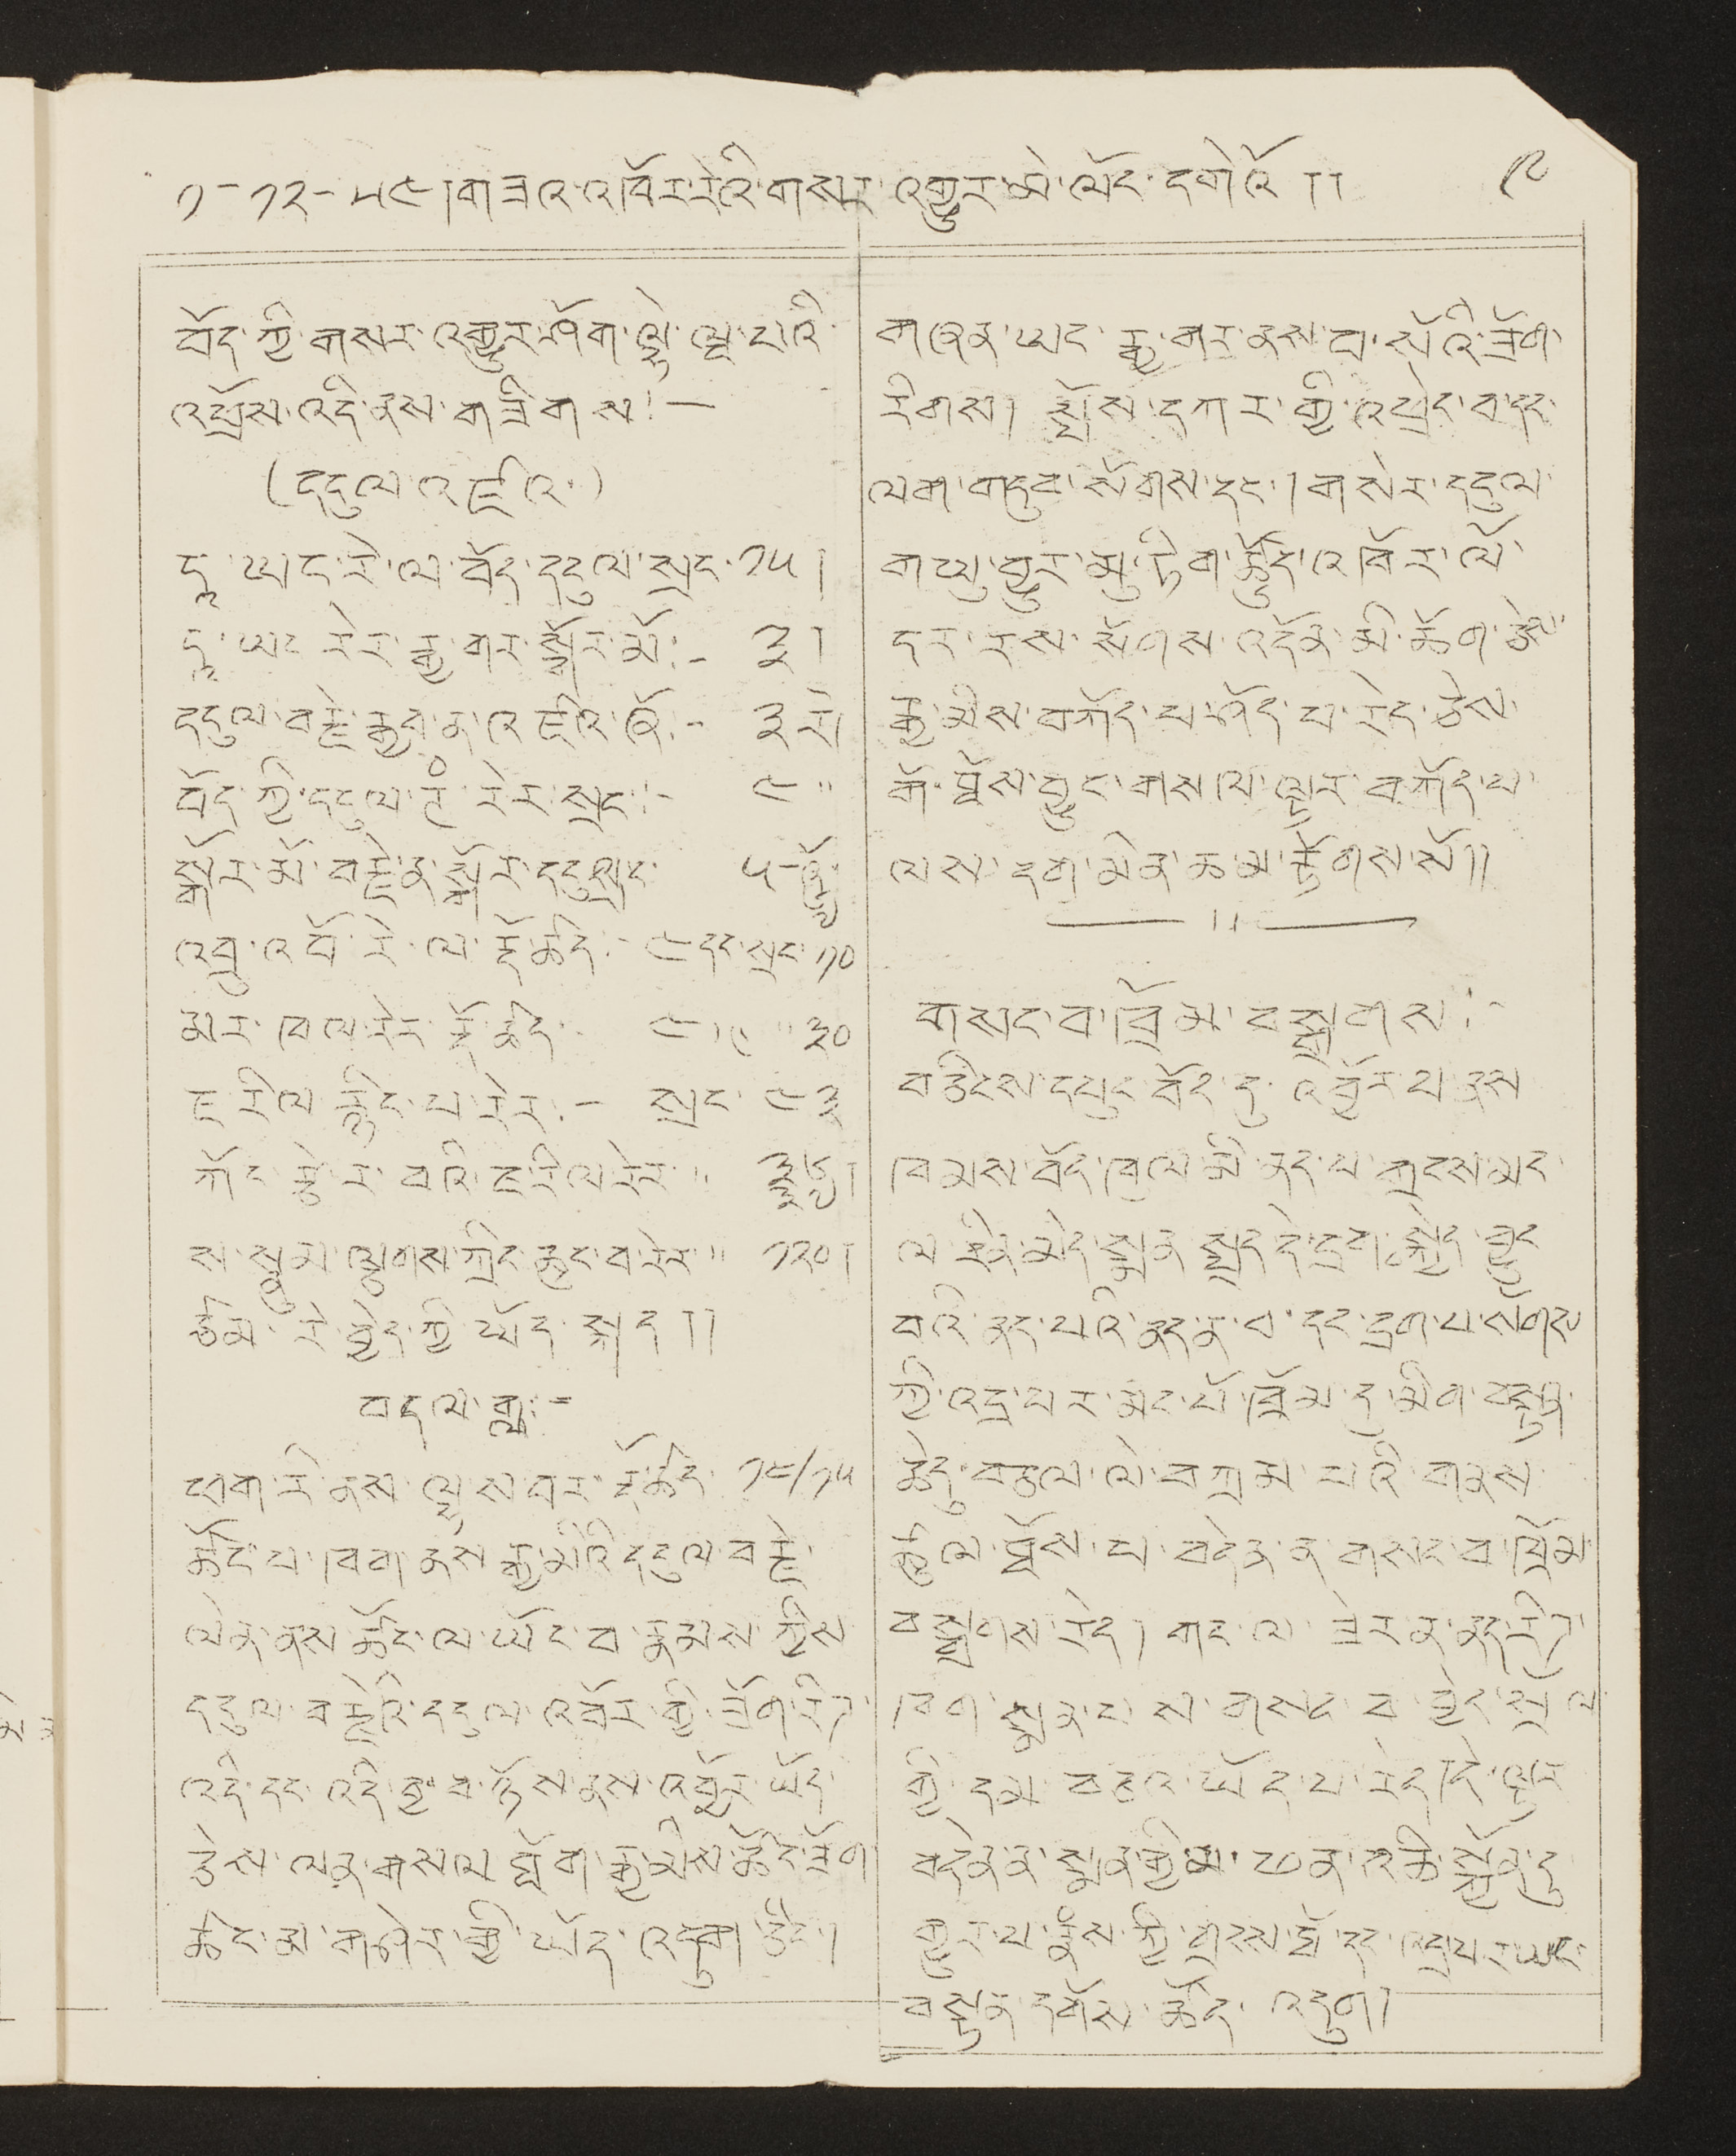༡-༡༢-༥༤།གཟའ་འཁོར་རེའི་གསར་འགྱུར་མེ་ལོང་དགེའོ།། ༩
བོད་ཀྱི་གསར་འགྱུར་ཤོག་ལྷེ་ལྔ་པའི་
འཕྲོས་འདི་ནས་གཟིགས:—
( དངུལ་འཛའ་ )
དྰ་ཡད་རེ་ལ་བོད་དངུལ་སྲང་༡༥།
དྰ་ཡང རེར་རྒྱ་གར་སྒོར་མོ:— ༣།
དངུལ་བརྗེ་རྒྱབ་ན་འཛམ་ཞོ་:—༣།
བོད་ཀྱི་དངུལ་ཊཾ་རེར་སྲང་:— ༤།
སྒོར་མོ་བརྗེད་སྒོར་དངུལ་སྲང་ ༥-འོ་
༦༧
༦༧
འབྲུ་འབོ་རེ་ལ་རྡོ་ཚད:—༤དང་སྲང་༡༠
མར་ཁལ་རེར་རྡོ་ཚད་ ༤དང་ ༣༠
ཇ་རིལ་རྙིང་པ་རེད་:—སྲང་ ༤༣
ཀོང་རྩེ་ར་བའི་ཇ་རིལ་རེར་ ༣༦།
༣༧
ས་སྣུམ་ལྕགས་ཀྲིང་ཆུང་བ་རེར་ ༡༢༠།
ཙམ་རེ་བྱེད་ཀྱི་ཡོད་སྐད།།
བདལ་གླ:—
ཕག་རི་ནས་ལྷ་ས་བར་རྡོ་ཚད་ ༡༤/༡༥
ཚོང་པ་ཁག་ནས་རྒྱ་མིའི་དངུལ་བརྗེ་
ལེན་ནས་ཚོང་ལ་ཡོང་བ་རྣམས་ཀྱིས་
དངུལ་བརྗེའི་དངུལ་འབོར་གྱི་ཟོག་རིཌ་
འདི་དང་འདི་བྱ་བ་ཉོས་ནས་འབྱོར་ཡོད་
ཅེས་ལན་གསལ ཐོག་རྒྱ་མིས་ཚང་ཟོག
ཚང་མ་གཤེར་གྱི་ཡོད་འདུག་ཅིང་།
གཞན་ཡང་རྒྱ་གར་ནས་བ་སོའི་ཟོག་
རིགས། སྤོས་དཀར་གྱི་འཕྲེད་བ་དང་
ལག་གདུབ་སོགས་དང་། གསེར་དངུལ་
གཡུ་བྱུར་མུ་ཏིག་ཚོུད་འཁོར་ལོ་
དར་རས་སོགས་འདོན་མི་ཆོག་ཅེས་
རྒྱ་མིས་བཀོད་པ་ཤོད་པ་རེད་ཅེས་
གོ་ཐོས་བྱུང་གསལ་ལྟར་བཀོད་པ།
ལས་དག་མིན་ཆ་མ་རྟོགས་སོ།།
གསང་བ་ཁྲོམ་བསྒྲགས:—
བཅིངས་དཔུང་བོད་དུ་འབྱོར་པ་ནས
ཁམས་བོད་ཁུལ་མི་ནད་པ་གྲངས་མང་
ལ་རིན་མེད་སྨན་སྤྲད་དེ་དྲག་བསྐྱེད་བྱུང
བའི་ནད་པའི་ནད་ན་བ་དང་དྲག་པ་སག
ཀྱི་འདྲ་པར་མང་པོ་ཁྲོམ་དུ་མིན་བསྟན་
ཆེདུ་བཙལ་ལེ་བཀྲམ་པའི་གནས་
ཚུལ་ཐོས་པ་བདེན་ན་གསང་བ་ཁྲོམ་
བསྒྲགས་རེད། གང་ལ་ཟེར་ན་ནད་རིཌ་
ཁག་སྨན་པས་གསང་བ་བྱེད་སྲོལ་
གྱི་དམ་བཅའ་ཡོད་པ་རེད།དེ་ལྟར
བདེན་ན་སྨད་གྱི་མ་ཕན་འཆི་སྐྱོན་དུ
གྱུར་པ་རྣཾས་ཀྱི་གྲངས་ཐོ་དང་འདྲ་པར་ཡང་
བསྟན་དགོས་ཚོད་འདུག།།
